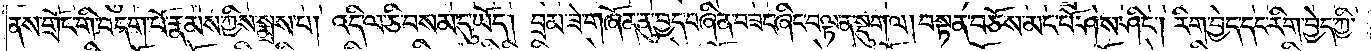ནས་གྲོང་གི་བདག་པོ་རྣམས་ཀྱིས་སྨྲས་པ། འདི་ལ་ཅི་བསམ་དུ་ཡོད། བྲམ་ཟེ་གཞོན་ནུ་བྱད་བཞིན་བཟང་ཞིང་བལྟ་ན་སྡུག་ལ། བསྟན་བཅོས་མང་པོ་ཤེས་ཤིང༌། རིག་བྱེད་དང་རིག་བྱེད་ཀྱི་
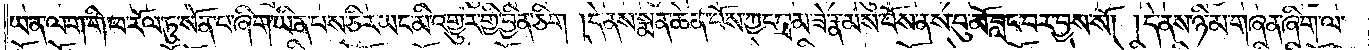ཡན་ལག་གི་ཕ་རོལ་ཏུ་སོན་པ་ཞིག་ཡིན་པས་ཅིར་ཡང་མི་འགྱུར་གྱི་བྱིན་ཅིག །དེ་ནས་སྨན་ཆེན་པོས་ཀྱང་བྲམ་ཟེ་རྣམས་བོས་ནས་བུ་མོ་བླང་བར་བྱས་སོ། །དེ་ནས་ཉི་མ་གཞན་ཞིག་ལ་
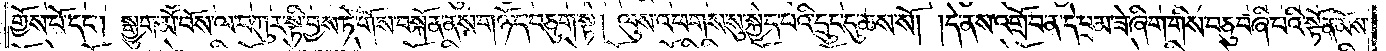གྱོས་པོ་དང༌། སྒྱུག་མོ་བོས་ལ་བཀུར་སྟི་བྱས་ཏེ་གོས་བསྐོན་ནས་གཉོད་བཅུག་སྟེ། ལུས་འཕགས་སུ་སྐྱེད་པའི་དྲུང་དུ་ཆས་སོ། །དེ་ནས་འགྲོ་བ་ན་དེ་བྲམ་ཟེ་ཞིག་གིས་བཅུ་བཞི་པའི་སྟོན་མོས་
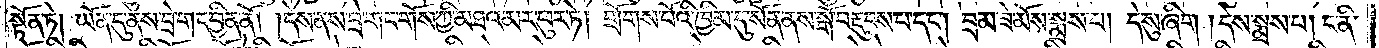སྟོན་ཏེ། ཡོན་དུ་ནས་བྲེ་གང་བྱིན་ནོ། །དེས་ནས་བྲེ་གང་གོས་ཀྱི་མཐའ་མར་བུར་ཏེ། གྲོགས་པོའི་ཁྱིམ་དུ་སོན་ནས་སྒོ་བརྡུངས་པ་དང༌། བྲམ་ཟེ་མོས་སྨྲས་པ། དེ་སུ་ཞིག །དེས་སྨྲས་པ། ང་ནི་
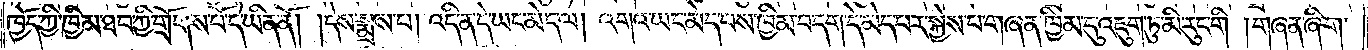ཁྱོད་ཀྱི་ཁྱིམ་ཐབ་ཀྱི་གྲོགས་པོ་དེ་ཡིན་ནོ། །དེས་སྨྲས་པ། འདི་ན་དེ་ཡང་མེད་ལ། འགའ་ཡང་མེད་པས་ཁྱིམ་བདག་དེ་མེད་པར་སྐྱེས་པ་གཞན་ཁྱིམ་དུ་འཇུག་ཏུ་མི་རུང་གི །གཞན་ཞིག་
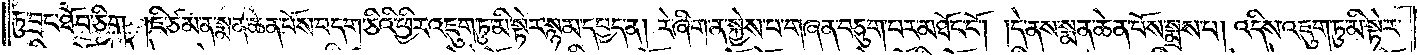ཏུ་བྲང་ཐོབ་ཅིག །ཇི་ཙམ་ན་སྨན་ཆེན་པོས་བདག་ཅིའི་ཕྱིར་འཇུག་ཏུ་མི་སྟེར་སྙམ་དཔྱད་ན། རེ་ཞིག་ན་སྐྱེས་པ་གཞན་བཅུག་པར་མཐོང་ངོ༌། །དེ་ནས་སྨན་ཆེན་པོས་སྨྲས་པ། འདིས་འཇུག་ཏུ་མི་སྟེར་
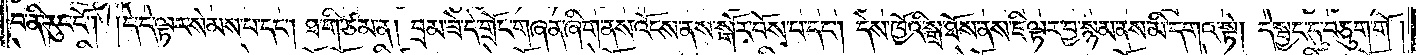བ་ནི་རུང་ངོ༌། །དེ་དེ་ལྟར་སེམས་པ་དང༌། ཐ་གི་ཙམ་ན། བྲམ་ཟེ་དེ་གྲོང་གཞན་ཞིག་ནས་འོངས་ནས་སྒོར་བོས་བ་དང༌། དེས་ཁྱོའི་སྒྲེ་ཐོས་ནས་ཇི་ལྟར་བྱ་སྙམ་ནས་མི་དགའ་སྟེ། དེ་སྦྱང་དུ་བཅུག་གོ །
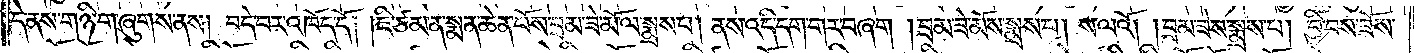དེ་ནས་གཉི་ག་ཞུགས་ནས། བདེ་བར་འཁོད་དོ། །ཇི་ཙམ་ན་སྨན་ཆེན་པོས་བྲམ་ཟེ་མོ་ལ་སྨྲས་པ། ནས་འདི་དག་གར་བཞག །བྲམ་ཟེ་མོས་སྨྲས་པ། ས་ལའོ། །བྲམ་ཟེས་སྨྲས་པ། བྱི་བས་ཟོས་
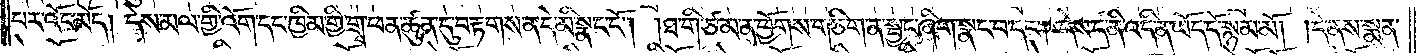པར་འོང་མོད། དེས་མལ་གྱི་འོག་དང་ཁྱིམ་གྱི་གྲྭ་ཕན་ཚུན་དུ་བརྟགས་ན་དེ་མི་སྣང་ངོ༌། །ཐ་གི་ཙམ་ན་ཕྱོགས་གཅིག་ན་སྦྱང་ཞིག་སྣང་བ་དང༌། དེས་ད་ནི་འདི་ན་ཡོད་དོ་སྙམ་མོ། །དེ་ནས་སྨན་
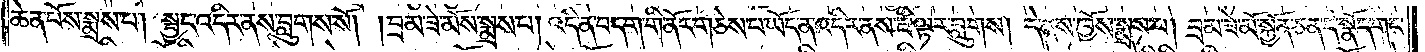ཆེན་པོས་སྨྲས་པ། སྦྱང་འདིར་ནས་བླུགས་སོ། །བྲམ་ཟེ་མོས་སྨྲས་པ། འདི་ན་བདག་གི་ནོར་གཅེས་པ་ཡོད་ན་འདིར་ནས་ཇི་ལྟར་བླུགས། དེ་ནས་ཁྱོས་སྨྲས་པ། བྲམ་ཟེ་མོ་སྐྱོན་ཅན་དེ་སྣོད་གང་
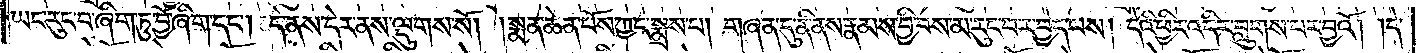ཡང་རུང་བ་ཞིག་ཏུ་བྱོ་ཞིག་དང༌། དེ་ནས་དེར་ནས་ལྡུགས་སོ། །སྨན་ཆེན་པོས་ཀྱང་སྨྲས་པ། གཞན་དུ་ནི་ནས་རྣམས་བྱི་བས་མ་རུང་བར་བྱེད་པས། དེའི་ཕྱིར་འདིར་བླུགས་པར་བྱའོ། །དེ་
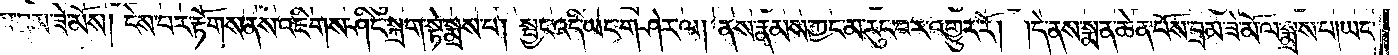ནས་བྲམ་ཟེ་མོས། ངེས་པར་རྟོགས་ནས་འཇིགས་ཤིང་སྐྲག་སྟེ་སྨྲས་པ། སྦྱང་འདི་ཡང་གཤེར་ལ། ནས་རྣམས་ཀྱང་མ་རུང་བར་འགྱུར་རོ། །དེ་ནས་སྨན་ཆེན་པོས་བྲམ་ཟེ་མོ་ལ་སྨྲས་པ། ཡང་
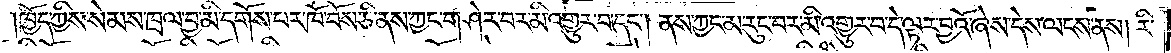ཁྱོད་ཀྱིས་སེམས་ཁྲལ་བྱ་མི་དགོས་པར་ཁོ་བོས་ཅི་ནས་ཀྱང་གཤེར་བར་མི་འགྱུར་བ་དང༌། ནས་ཀྱང་མ་རུང་བར་མི་འགྱུར་བ་དེ་ལྟར་བྱའོ་ཞེས་དེས་ལངས་ནས། རི་
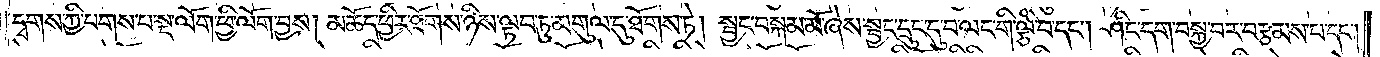དྭགས་ཀྱི་པགས་པ་སྔ་ལོག་ཕྱི་ལོག་བྱས། མཆོད་ཕྱིར་ཐོགས་ཉིས་ལྟ་བ་ཏུ་མགུལ་དུ་ཐོགས་ཏེ། སྦྱང་བསྐམ་མོ་ཞེས་སྦྱང་དྲུང་དུ་བ་ལང་གི་ལྕི་བ་དང༌། ཤིང་དག་བསྐྱ་བར་བརྩམས་པ་དང༌།
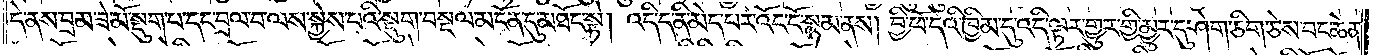དེ་ནས་བྲམ་ཟེ་མོ་སྡུག་པ་དང་བྲལ་བ་ལས་སྐྱེས་པའི་སྡུག་བསྔལ་མངོན་དུ་མཐོང་སྟེ། འདི་ད་ནི་མེད་པར་འོང་ངོ་སྙམ་ནས། བྱི་ཕོ་དེའི་ཁྱིམ་དུ་འདི་ལྟར་གྱུར་གྱི་མྱུར་དུ་ཤེག་གཅིག་ཅེས་བང་ཆེན་
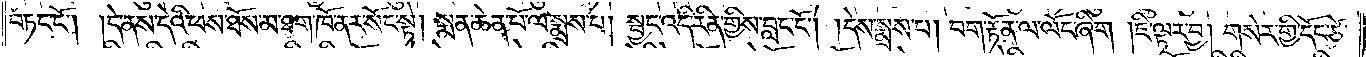བཏང་ངོ༌། །དེ་ནས་དེའི་ཕས་ཐོས་མ་ཐག་ཁོ་ནར་སོང་སྟེ། སྨན་ཆེན་པོ་ལ་སྨྲས་པ། སྦྱང་འདི་རིན་གྱིས་བླང་ངོ༌། །དེས་སྨྲས་པ། བག་རྟོན་ལ་ལོང་ཞིག །ཇི་ལྟར་བྱ། གསེར་གྱི་དོང་ཙེ་
